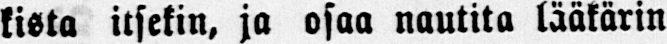kista itsekin, ja osaa nautita lääkärin
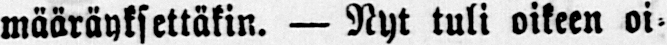määräyksettäkin. — Nyt tuli oikeen oi-
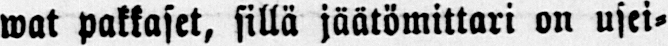wat pakkaset, sillä jäätömittari on usei-
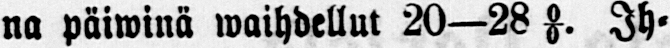na päwinä waihdellut 20—28 0/0. Ih-
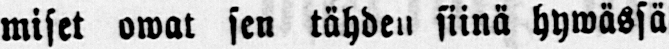miset owat sen tähden siinä hywässä
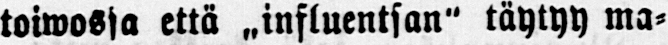toiwossa että ˶influentsan" täytyy ma-
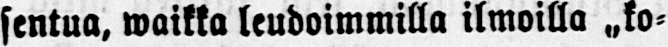sentua, waikka leudoimmilla ilmoilla ˶ko-
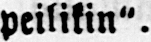peilikin".
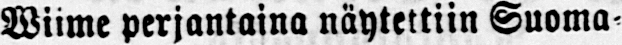Wiime perjantaina näytettiin Suoma-
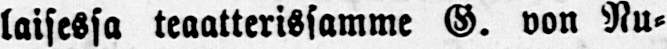laisessa teaatterissamme G. von Nu-
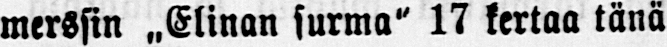merssin ˶Elinan surma" 17 kertaa tänä
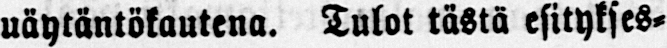uäytäntökautena. Tulot tästä esitykses-
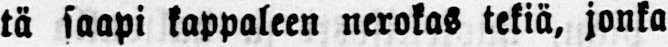tä kaapi kappaleen nerokas tekiä, jonka
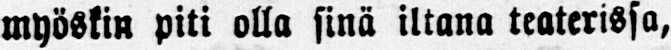myöskin piti olla sinä iltana teaterissa,
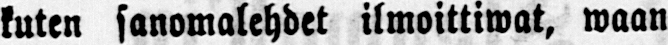kuten sanomalehdet ilmoittiwat, waan
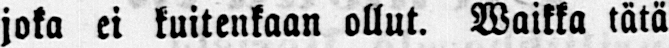joka ei kuitenkaan ollut. Waikka tätä
